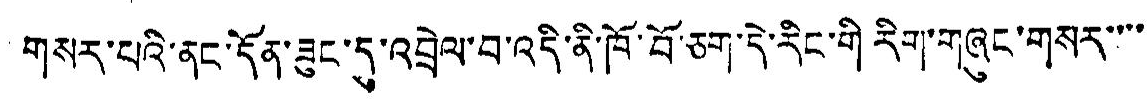གསར་པའི་ནང་དོན་ཟུང་དུ་འབྲེལ་བ་འདི་ནི་ཁོ་བོ་ཅག་དེ་རིང་གི རིག་གཞུང་གསར་་་་
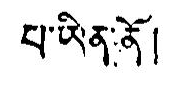པ་ཡིན་ནོ།
